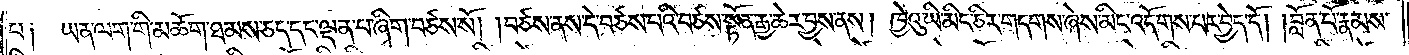པ༑ ཡན་ལག་གི་མཆོག་ཐམས་ཅད་དང་ལྡན་པ་ཞིག་བཙས་སོ། །བཙས་ནས་དེ་བཙས་པའི་བཙས་སྟོན་རྒྱ་ཆེར་བྱས་ནས། ཁྱེའུ་ཡི་མིང་ཅིར་གདགས་ཞེས་མིང་འདོགས་པར་བྱེད་དོ། །བློན་པོ་རྣམས་
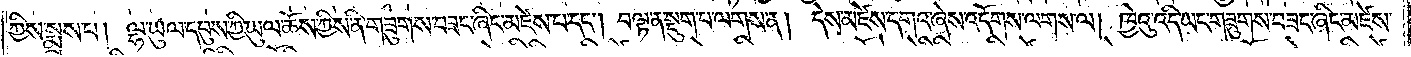ཀྱིས་སྨྲས་པ། ལྷ་ཡུལ་དབུས་ཀྱི་ཡུལ་ཆོས་ཀྱིས་ནི་གཟུགས་བཟང་ཞིང་མཛེས་པ་དང༌། བལྟ་ན་སྡུག་པ་ལགས་ན། དེས་མཛེས་དགའ་ཞེས་འདོགས་ལགས་ལ། ཁྱེའུ་འདི་ཡང་གཟུགས་བཟང་ཞིང་མཛེས་
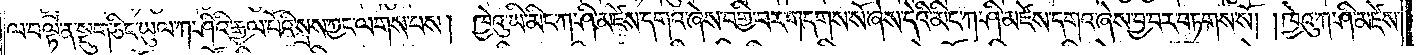ལ་བལྟ་ན་སྡུག་ཅིང་ཡུལ་ཀ་ཤིའི་རྒྱལ་པོའི་སྲས་ཀྱང་ལགས་པས། ཁྱེའུ་ཡི་མིང་ཀ་ཤི་མཛེས་དགའ་ཞེས་བགྱི་བར་གདགས་སོ་ཞེས་དེའི་མིང་ཀ་ཤི་མཛེས་དགའ་ཞེས་བྱ་བར་བཏགས་སོ། །ཁྱེའུ་ཀ་ཤི་མཛེས་
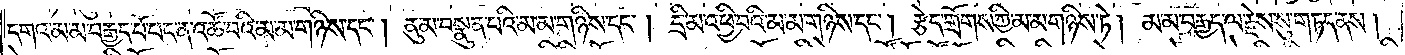དགའ་མ་མ་བརྒྱད་པོ་པང་ན་འཚོ་བའི་མ་མ་གཉིས་དང༌། ནུ་མ་བསྣུན་པའི་མ་མ་གཉིས་དང༌། དྲི་མ་འཕྱི་བའི་མ་མ་གཉིས་དང༌། རྩེད་གྲོགས་ཀྱི་མ་མ་གཉིས་ཏེ། མ་མ་བརྒྱད་ལ་རྗེས་སུ་གཏད་ནས།
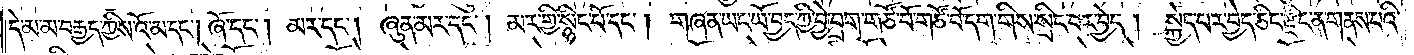དེ་མ་མ་བརྒྱད་ཀྱིས་འོ་མ་དང༌། ཞོ་དང༌། མར་དང༌། ཞུན་མར་དང༌། མར་གྱི་སྙིང་པོ་དང༌། གཞན་ཡང་ཡོ་བྱད་ཀྱི་བྱེ་བྲག་གཙོ་བོ་གཙོ་བོ་དག་གིས་སྲིང་བར་བྱེད། སྐྱེད་པར་བྱེད་ཅིང་རྫིང་ན་གནས་པའི་
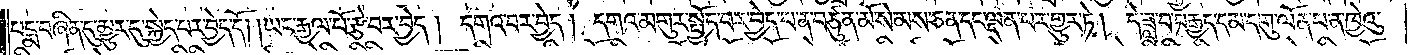པདྨ་བཞིན་དུ་མྱུར་དུ་སྐྱེད་པར་བྱེད་དོ། །ཡང་རྒྱལ་པོ་རྩེ་བར་བྱེད། དགའ་བར་བྱེད། དགའ་མགུར་སྤྱོད་པར་བྱེད་པ་ན་བཙུན་མོ་སེམས་ཅན་དང་ལྡན་པར་གྱུར་ཏེ། དེ་ཟླ་བ་བརྒྱད་དམ་དགུ་ལོན་པ་ན་ཁྱེའུ་
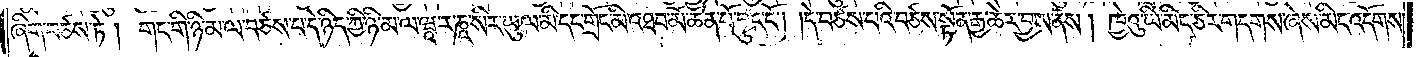ཞིག་བཙས་ཏེ། གང་གི་ཉི་མ་ལ་བཙས་པ་དེ་ཉིད་ཀྱི་ཉི་མ་ལ་ཝཱ་ར་ཎཱ་སིར་ཡུལ་མི་དང་གྲོང་མི་འཐབ་མོ་ཆེན་པོ་བྱུང་ངོ༌། །དེ་བཙས་པའི་བཙས་སྟོན་རྒྱ་ཆེར་བྱས་ནས། ཁྱེའུ་ཡི་མིང་ཅིར་གདགས་ཞེས་མིང་འདོགས་
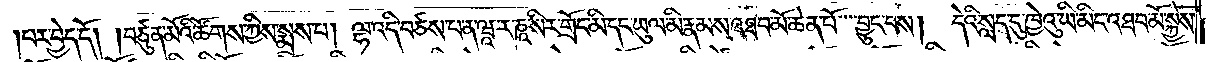པར་བྱེད་དོ། །བཙུན་མོའི་ཚོགས་ཀྱིས་སྨྲས་པ། ལྷ་འདི་བཙས་པ་ན་ཝཱ་ར་ཎཱ་སིར་གྲོང་མི་དང་ཡུལ་མི་རྣམས་འཐབ་མོ་ཆེན་པོ་བྱུང་བས། དེའི་སླད་དུ་ཁྱེའུ་ཡི་མིང་འཐབ་མོ་སྐྱེས་
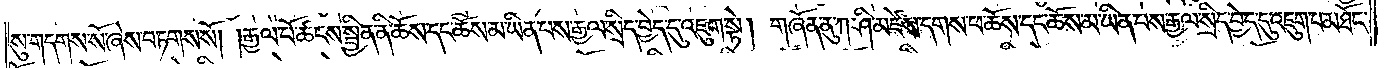སུ་གདགས་སོ་ཞེས་བཏགས་སོ། །རྒྱལ་པོ་ཚངས་སྦྱིན་ནི་ཆོས་དང་ཆོས་མ་ཡིན་པས་རྒྱལ་སྲིད་བྱེད་དུ་འཇུག་སྟེ། གཞོན་ནུ་ཀ་ཤི་མཛེས་དགས་ཕ་ཆོས་དང་ཆོས་མ་ཡིན་པས་རྒྱལ་སྲིད་བྱེད་དུ་འཇུག་པ་མཐོང་
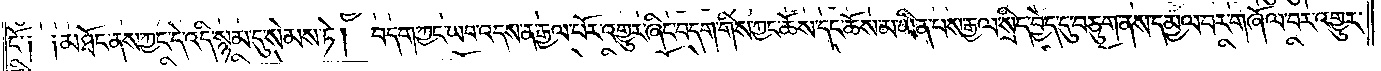ངོ༑ ༑མཐོང་ནས་ཀྱང་དེ་འདི་སྙམ་དུ་སེམས་ཏེ། བདག་ཀྱང་ཡབ་འདས་ན་རྒྱལ་པོར་འགྱུར་ཞིང་བདག་གིས་ཀྱང་ཆོས་དང་ཆོས་མ་ཡིན་པས་རྒྱལ་སྲིད་བྱེད་དུ་བཅུག་ནས་དམྱལ་བར་གཞོལ་བར་འགྱུར་
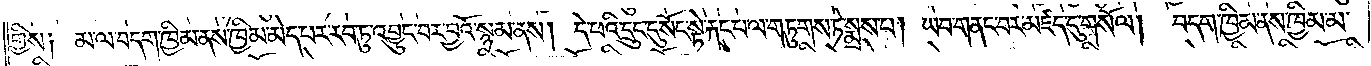གྱིས༑ མ་ལ་བདག་ཁྱིམ་ནས་ཁྱིམ་མེད་པར་རབ་ཏུ་འབྱུང་བར་བྱའོ་སྙམ་ནས། དེ་ཕའི་དྲུང་དུ་སོང་སྟེ་རྐང་པ་ལ་གཏུགས་ཏེ་སྨྲས་པ། ཡབ་གནང་བར་མཛད་དུ་གསོལ། བདག་ཁྱིམ་ནས་ཁྱིམ་མ་
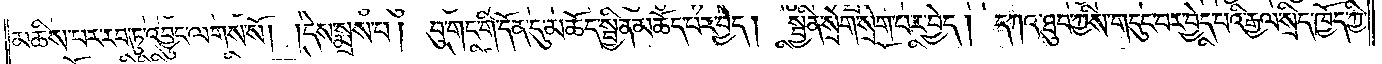མཆིས་པར་རབ་ཏུ་འབྱུང་ལགས་སོ། །དེས་སྨྲས་པ། བུ་གང་གི་དོན་དུ་མཆོད་སྦྱིན་མཆོད་པར་བྱེད། སྦྱིན་སྲེག་སྲེག་པར་བྱེད། དཀའ་ཐུབ་ཀྱིས་གདུང་བར་བྱེད་པའི་རྒྱལ་སྲིད་ཁྱོད་ཀྱི་
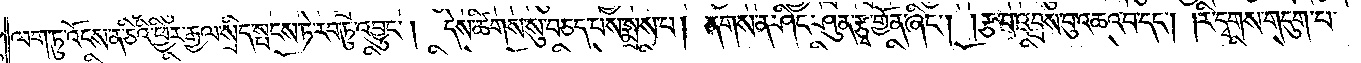ལག་ཏུ་འོངས་ན་ཅིའི་ཕྱིར་རྒྱལ་སྲིད་སྤངས་ཏེ་རབ་ཏུ་འབྱུང༌། དེས་ཚིགས་སུ་བཅད་པས་སྨྲས་པ། ནགས་ན་ཤིང་ཤུན་རྩྭ་གྱོན་ཞིང༌། །རྩ་བ་འབྲས་བུ་འཆའ་བ་དང༌། །རི་དྭགས་གདུག་པ་
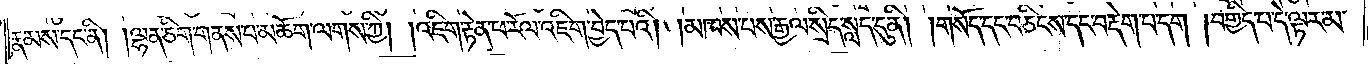རྣམས་དང་ནི། །ལྷན་ཅིག་གནས་པ་མཆོག་ལགས་ཀྱི། །འཇིག་རྟེན་ཕ་རོལ་འཇིག་བྱེད་པའི། །མཁས་པས་རྒྱལ་སྲིད་སླད་དུ་ནི། །གསོད་དང་བཅིངས་དང་བརྡེག་པ་དག །བགྱིད་པ་དེ་ལྟར་མ་
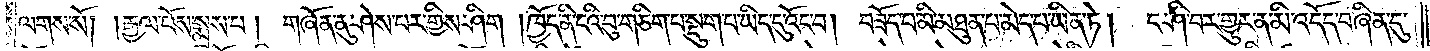ལགས་སོ། །རྒྱལ་པོས་སྨྲས་པ། གཞོན་ནུ་ཤེས་པར་གྱིས་ཤིག །ཁྱོད་ནི་ངའི་བུ་གཅིག་པ་སྡུག་པ་ཡིད་དུ་འོང་བ། བཟོད་པ་མི་མཐུན་པ་མེད་པ་ཡིན་ཏེ། ང་ཤི་བར་གྱུར་ན་མི་འདོད་བཞིན་དུ་
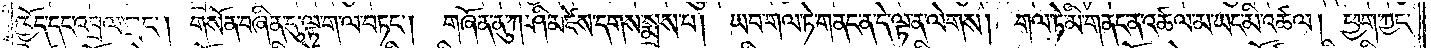ཁྱོད་དང་འབྲལ་གྲང༌། གསོན་བཞིན་དུ་ལྟ་ག་ལ་བཏང༌། གཞོན་ནུ་ཀ་ཤི་མཛེས་དགས་སྨྲས་པ། ཡབ་གལ་ཏེ་གནང་ན་དེ་ལྟ་ན་ལེགས། གལ་ཏེ་མི་གནང་ན་འཚལ་མ་ཡང་མི་འཚལ། ཕྱག་ཀྱང་
